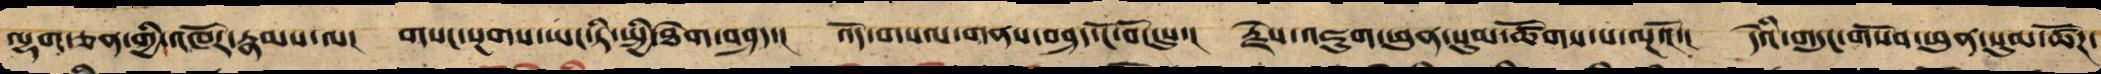ལྷག་ཅན་གྱི་འཁོར་རྣམས་ལ། གསང་སྔགས་ཡང་ཏི་སྤྱི་ཐེག་བཤད་། འོད་གསལ་གནས་བཤད་ངོ་བོ་དུས་། རྗེས་འཇུག་ཕུན་སུམ་ཚོགས་པ་ལྔའོ་། དེའི་གདུང་གསོབ་ཕུན་སུམ་ཚོཌ་
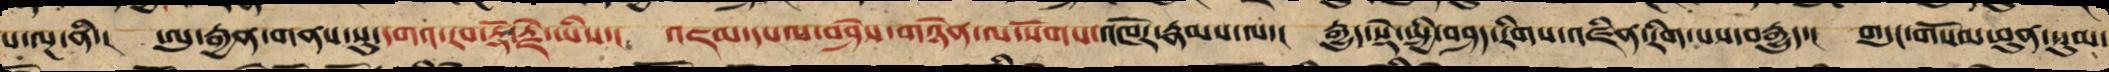པ་ལྔ་ནི་། ཨུ་རྒྱན་གནས་སུ་དགའ་རབ་རྡོ་རྗེ་ཡིས་། འཇམ་དཔལ་བཤེས་གཉེན་ལ་སོགས་འཁོར་རྣམས་ལ་། རྒྱུད་སྡེ་སྤྱི་བཤད་རིག་འཛིན་རིག་པས་བརྒྱུད་། གདུང་གསོལ་ཕུན་སུམ་
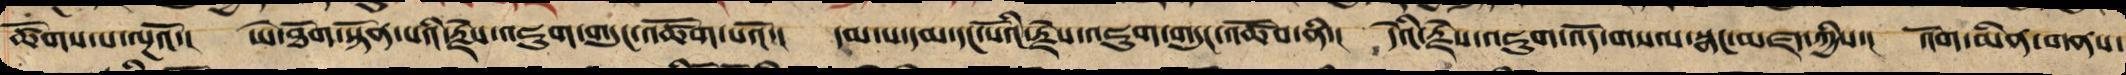ཚོགས་པ་ལྔའོ་། ཡེ་ཐོག་སྟོན་པའི་རྗེས་འཇུག་གདུང་འཚོག་པའོ་། དམ་པ་དམ་དང་པོའི་རྗེས་འཇུག་གདུང་འཚོབ་ནི་། དེའི་རྗེས་འཇུག་འོད་གསལ་སྣང་མཛད་ཀྱིས་། འོག་མིན་གནས་
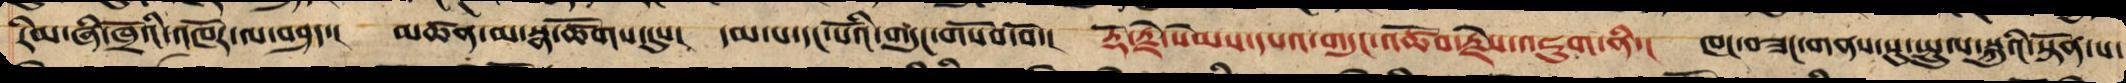རིམ་ཞི་ཁྲོའི་འཁོར་ལ་བཤད་། མཚན་མ་སྣ་ཚོགས་དུས། དམ་པ་དང་པོའི་གདུང་གསོབ་བོ་། རྡོ་རྗེ་སེམས་དཔའ་གདུང་འཚོབ་རྗེས་འཇུག་ནི་། ཁང་བཟང་གནས་སུ་སྤྲུལ་སྐུའི་སྟོན་པ་
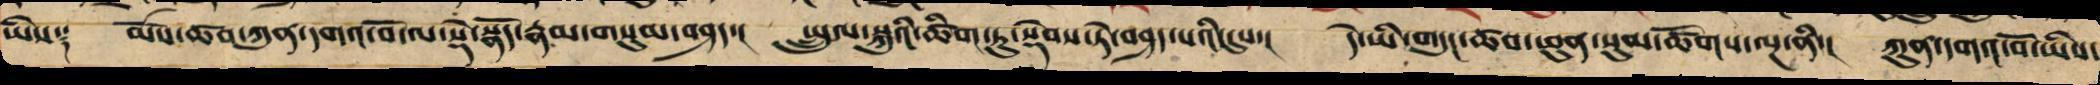ཡིས༑ མོས་ཚབ་ཀུན་དགའ་བོ་ལ་སྡེ་སྣོད་རྣམ་གསུམ་བཤད་། སྤྲུལ་སྐུའི་ཚིག་ཏུ་སྡེབས་ཏེ་བཤད་པའི་དུས་། དེ་ཡི་གདུང་ཚབ་ཕུན་སུམ་ཚོགས་ལྔ་ནི་། ཀུན་དགའ་བོ་ཡིས་
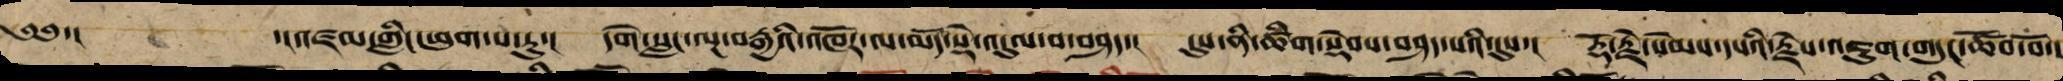༄༅་།  ་།འཛམ་གླིང་ཕུག་པ་རུ་། དགེ་སླང་ལྔ་བརྒྱའི་འཁོར་ལ་མདོ་སྡེ་འདུལ་བ་བཤད་། དུས་ནི་ཚིག་སྡེབས་བཤད་པའི་དུས་། རྡོ་རྗེ་སེམས་དཔའི་རྗེས་འཇུག་གདུང་ཚོབ་བོ་།
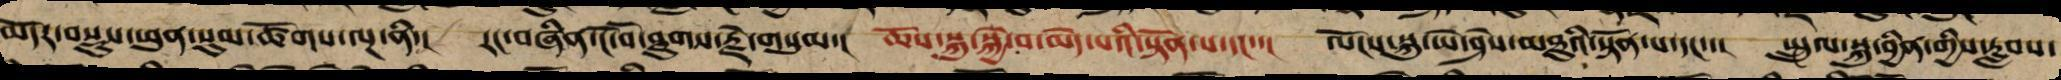མདོར་བསྡུས་ཕུན་སུམ་ཚོགས་ལྔ་ནི་། རང་བཞིན་ངོ་བོ་ཐུགས་རྗེ་གསུམ་། ཆོས་སྐུ་སྐྱེ་བ་མེད་པའི་སྟོན་པ་དང་་། ལོངས་སྐུ་ཡེ་ཤེས་མཐུ་ཡི་སྟོན་པ་དང་་། སྤྲུལ་སྐུ་བྱིན་གྱིས་རླབས་
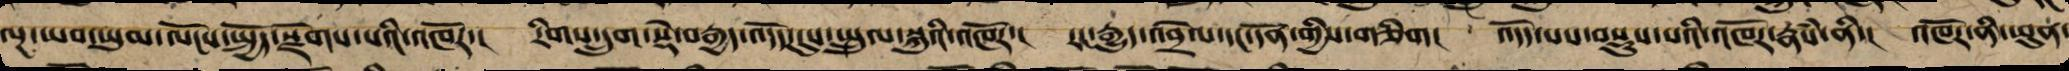ལྔ་ཡབ་ཡུམ་ལོངས་སྤྱོད་སྫོགས་པའི་འཁོར་། རིགས་དྲུག་སྡེ་བརྒྱད་འདོད་དུས་སྤྲུལ་སྐུའི་འཁོར་། རང་རྒྱུད་འབྲེལ་དང་དོན་གྱིས་གཅིག། འདོད་པས་བསྡུས་པའི་འཁོར་རྣཾས་ནི་། འཁོར་ནི་ཕུན་
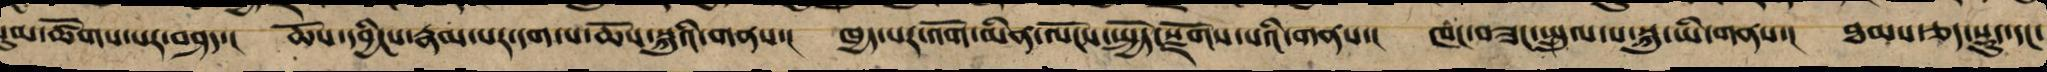སུམ་ཚོགས་པར་བཤད་། ཆོས་དབྱིངས་རྣམ་པར་དག་པ་ཆོས་སྐུའི་གནས་། ཁྱད་པར་འོག་མིན་ལོངས་སྤྱོད་སྫོགས་པའི་གནས་། ཁང་བཟང་སྤྲུལ་པ་སྐུ་ཡི་གནས་། ཐམས་ཅད་སྡུད་དང་
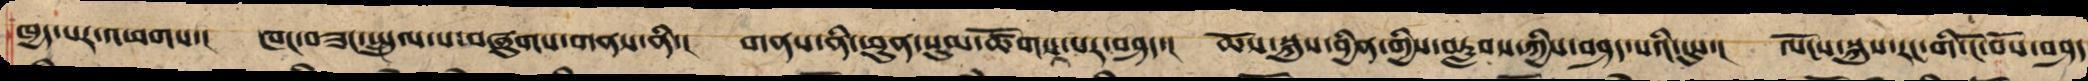ཁྱད་པར་འཕགས་། ཁང་བཟང་སྤྲུལ་པ་བཞུགས་གནས་ནི་། གནས་ནི་ཕུན་སུམ་ཚོགས་པར་བཤད་། ཆོས་སྐུས་བྱིན་གྱི་བརླབས་ཀྱིས་བཤད་པའི་དུས་། ལོངས་སྐུས་རང་གི་ངོ་བོས་བཤད
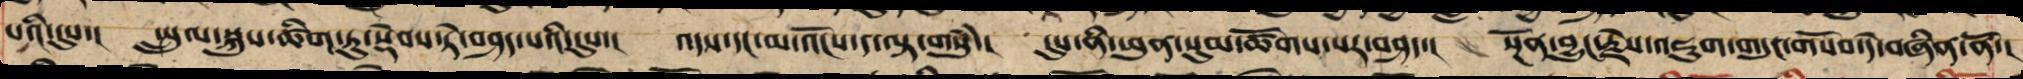པའི་དུས་། སྤྲུལ་སྐུས་ཚིག་ཏུ་སྡེབས་ཏེ་བཤད་པའི་དུས་། འདས་དང་མ་འོངས་ད་ལྟ་གསུཾ་། དུས་ནི་ཕུན་སུམ་ཚོགས་པར་བཤད་། སྔོན་བྱུང་རྗེས་འཇུག་གདུང་གསོབ་དེ་བཞིན་ནོ་།
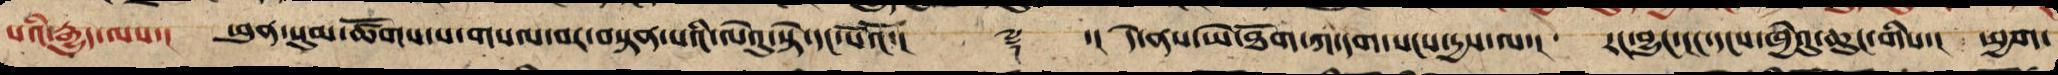པའི་རྒྱུད་ལས་། ཕུན་སུམ་ཚོགས་པ་གསལ་བར་བསྟན་པའི་ལེའུ་སྟེ་དང་པོའོ་།། ༈ ་།། དེ་ནས་ཡེ་ཐོག་ཀ་དག་སངས་རྒྱས་ལ་། རང་བྱུང་ངང་དངས་ཁྱེའུ་ཆུང་གིས་། ཕྱག་
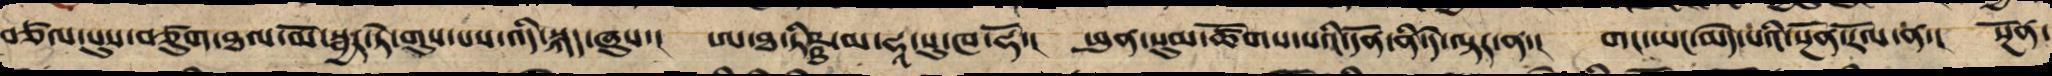བཙལ་པུས་བཙུགས་ཐལ་མོ་སྦྱར་ཏེ་གུས་པས་འདི་སྐད་ཞུས་། ཨ་ཐ་ཏིཥྛ་མ་ཧཱ་སུ་ཁ་ཧོ་། ཕུན་སུམ་ཚོགས་པའི་དོན་ནི་དེ་ལྟར་ན་། གང་ཡང་མེད་པའི་སྔོན་རོལ་ན་། སྔོན་
